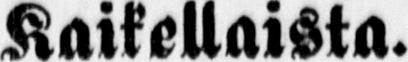Kaikellaista.
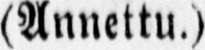(Annettu.)
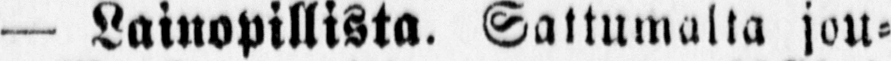— Lainopillista. Sattumalta jou-
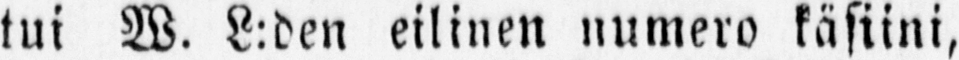tui W. L:den eilinen numero käsiini,
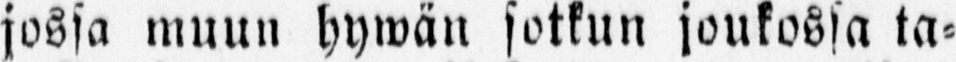jossa muun hywän sotkun joukossa ta-
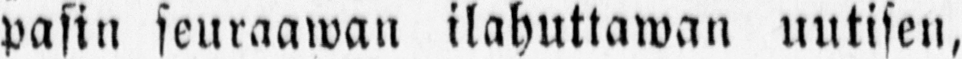pasin seuraawan ilahuttawan uutisen,
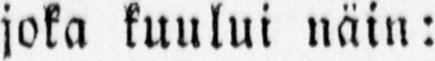joka kuului näin:
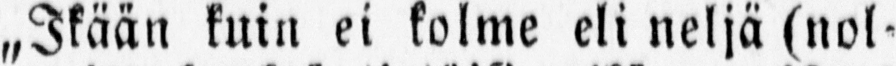„Ikään kuin ei kolme eli neljä (nol-
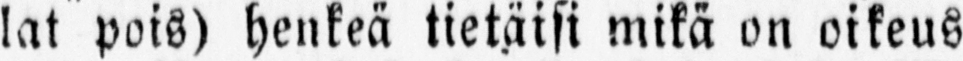lat pois) henkeä tietäisi mikä on oikeus
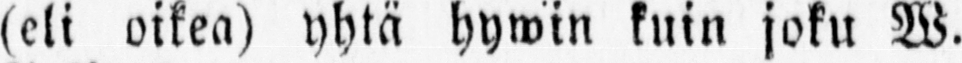(eli oikea) yhtä hywin kuin joku W.
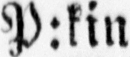P:kin."
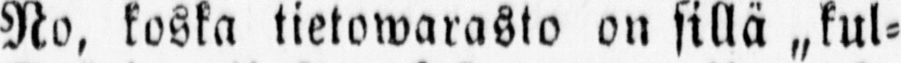No, koska tietowarasto on sillä „kul-
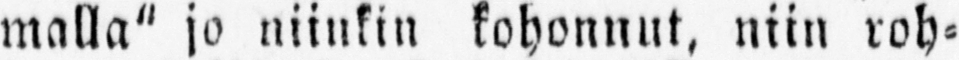malla" jo niinkin kohonnut, niin roh-
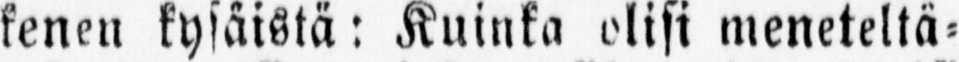kenen kysäistä: Kuinka olisi meneteltä-
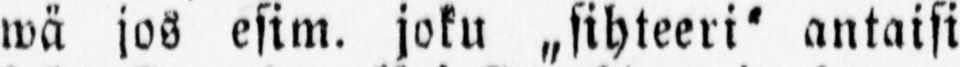wä jos esim. joku „sihteeri" antaisi
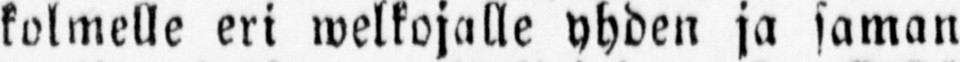kolmelle eri welkojalle yhden ja saman
